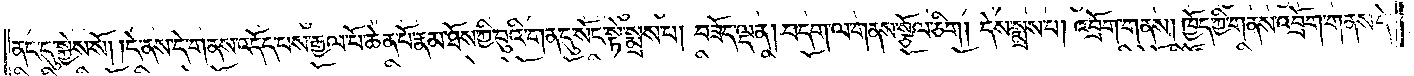ནང་དུ་སྐྱེས་སོ། །དེ་ནས་དེ་གནས་འདོད་པས་རྒྱལ་པོ་ཆེན་པོ་རྣམ་ཐོས་ཀྱི་བུའི་གན་དུ་སོང་སྟེ་སྨྲས་པ། བཟོད་ལྡན། བདག་ལ་གནས་སྩོལ་ཅིག །དེས་སྨྲས་པ། འབྲོག་གནས། ཁྱོད་ཀྱི་གནས་འབྲོག་གནས་དེ་
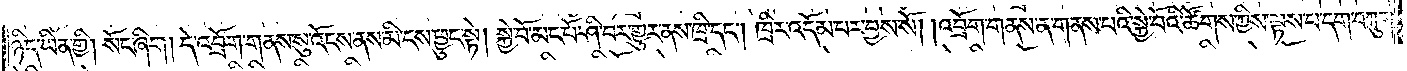ཉིད་ཡིན་གྱི། སོང་ཞིག །དེ་འབྲོག་གནས་སུ་འོངས་ནས་མི་ངས་ཕྱུང་སྟེ། སྐྱེ་བོ་མང་པོ་ཤི་བར་གྱུར་ནས་ཁྲི་དང༌། ཁྲིར་འདོམ་པར་བྱས་སོ། །འབྲོག་གནས་ན་གནས་པའི་སྐྱེ་བོའི་ཚོགས་ཀྱིས་ལྟས་པ་དག་བཀུག་
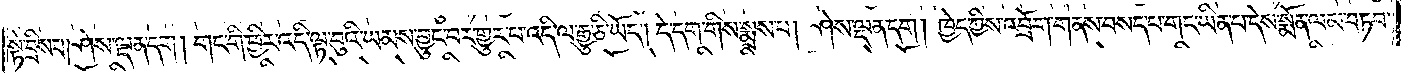སྟེ་བྲིས་པ། ཤེས་ལྡན་དག །གང་གི་ཕྱིར་འདི་ལྟ་བུའི་ཡམས་བྱུང་བར་གྱུར་པ་འདི་ལ་རྒྱུ་ཅི་ཡོད། དེ་དག་གིས་སྨྲས་པ། ཤེས་ལྡན་དག །ཁྱེད་ཀྱིས་འབྲོག་གནས་བསད་པ་གང་ཡིན་པ་དེས་སྨོན་ལམ་བཏབ་
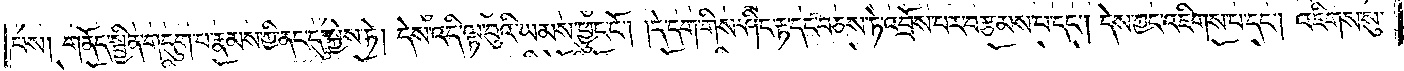པས། གནོད་སྦྱིན་གདུག་པ་རྣམས་ཀྱི་ནང་དུ་སྐྱེས་ཏེ། དེས་འདི་ལྟ་བུའི་ཡམས་ཕྱུང་ངོ༌། །དེ་དག་གིས་ཤིང་རྟ་དང་བཅས་ཏེ་འབྲོས་པར་བརྩམས་པ་དང༌། དེས་ཀྱང་འཇིགས་པ་དང༌། འཇིགས་སུ་
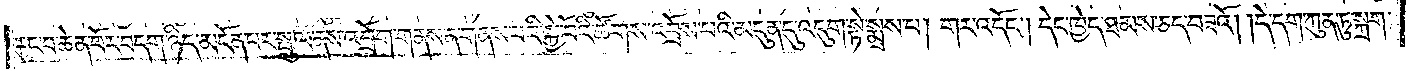རུང་བ་ཆེན་པོར་བདག་ཉིད་མངོན་པར་སྤྲུལ་ནས་འབྲོག་གནས་ན་གནས་པའི་སྐྱེ་བོའི་ཚོགས་འབྲོས་པའི་མདུན་དུ་འདུག་སྟེ་སྨྲས་པ། གར་འདོང༌། དེང་ཁྱེད་ཐམས་ཅད་བཟའོ། །དེ་དག་ཀུན་ཏུ་སྐྲག་
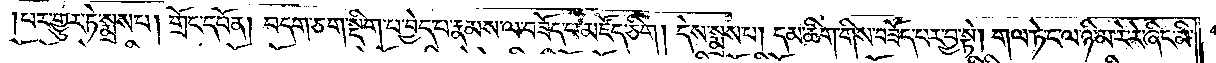།པར་གྱུར་ཏེ་སྨྲས་པ། གྲོང་དཔོན། བདག་ཅག་སྡིག་པ་བྱེད་པ་རྣམས་ལ་བཟོད་པ་མཛོད་ཅིག །དེས་སྨྲས་པ། དམ་ཚིག་གིས་བཟོད་པར་བྱ་སྟེ། གལ་ཏེ་ང་ལ་ཉི་མ་རེ་རེ་ཞིང་མི་
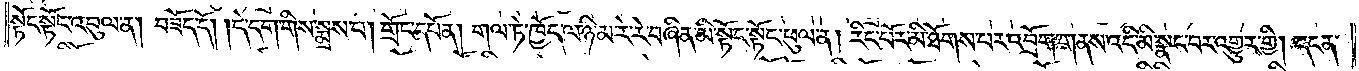སྟོང་སྟོང་འབུལ་ན། བཟོད་དོ། །དེ་དག་གིས་སྨྲས་པ། གྲོང་དཔོན། གལ་ཏེ་ཁྱོད་ལ་ཉི་མ་རེ་རེ་བཞིན་མི་སྟོང་སྟོང་ཕུལ་ན། རིང་པོར་མི་ཐོགས་པར་འབྲོག་གནས་འདི་མི་སྣང་བར་འགྱུར་གྱི། དངན་
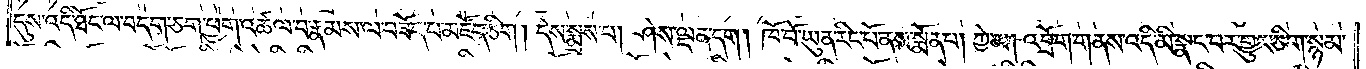དུས་འདི་ཐོང་ལ་བདག་ཅག་ཕྱག་འཚལ་བ་རྣམས་ལ་བཟོད་པ་མཛོད་ཅིག །དེས་སྨྲས་པ། ཤེས་ལྡན་དག །ཁོ་བོ་ཡུན་རིང་པོ་ནས་སྨོན་པ། ཀྱེ་མ། འབྲོག་གནས་འདི་མི་སྣང་བར་གྱུར་ཅིག་སྙམ་
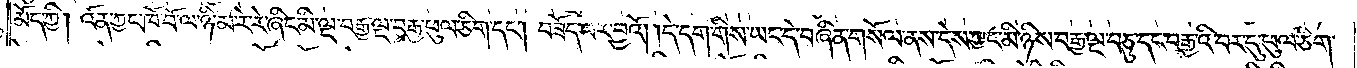མོད་ཀྱི། འོན་ཀྱང་ཁོ་བོ་ལ་ཉི་མ་རེ་རེ་ཞིང་མི་ལྔ་བརྒྱ་ལྔ་བརྒྱ་ཕུལ་ཅིག་དང༌། བཟོད་པར་བྱའོ། །དེ་དག་གིས་ཡང་དེ་བཞིན་གསོལ་ནས་དེས་ཀྱང་མི་ཉིས་བརྒྱ་ལྔ་བཅུ་དང་བརྒྱའི་བར་དུ་ཕུལ་ཅིག་
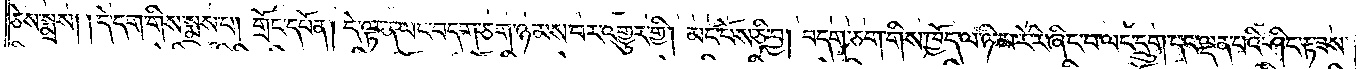ཅེས་སྨྲས། །དེ་དག་གིས་སྨྲས་པ། གྲོང་དཔོན། དེ་ལྟ་ན་ཡང་བདག་ཅག་ཉམས་པར་འགྱུར་གྱི། མང་པོས་ཅི་བྱ། བདག་ཅག་གིས་ཁྱོད་ལ་ཉི་མ་རེ་རེ་ཞིང་བ་ལང་དྲུག་དང་ལྡན་པའི་ཤིང་རྟ་ཟས་
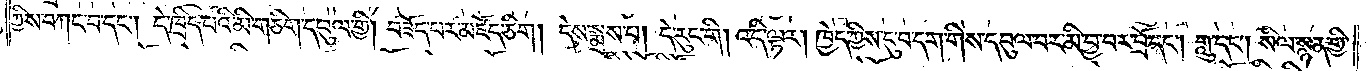ཀྱིས་བཀང་བ་དང༌། དེ་ཁྲིད་པའི་མི་གཅིག་དབུལ་གྱི། བཟོད་པར་མཛོད་ཅིག །དེས་སྨྲས་པ། དེ་རུང་གི། འདི་ལྟར། ཁྱེད་ཀྱིས་དུ་བ་དག་གིས་དབུལ་བར་མི་བྱ་བར་བྲོ་དང༌། གླུ་དང༌། སིལ་སྙན་གྱི་
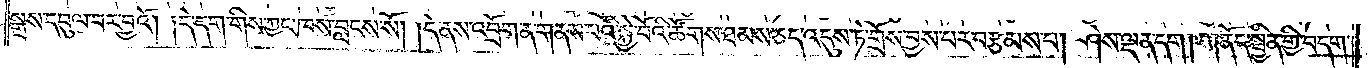སྒྲས་དབུལ་བར་བྱའོ། །དེ་དག་གིས་ཀྱང་ཁས་བླངས་སོ། །དེ་ནས་འབྲོག་ན་གནས་པའི་སྐྱེ་བོའི་ཚོགས་ཐམས་ཅད་འདུས་ཏེ་གྲོས་བྱས་པར་བརྩམས་པ། ཤེས་ལྡན་དག །གནོད་སྦྱིན་གྱི་བདག་
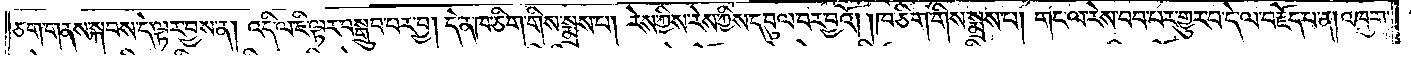ཅག་གནས་སྐབས་དེ་ལྟར་བྱས་ན། འདི་ལ་ཇི་ལྟར་བསྒྲུབ་པར་བྱ། དེ་ན་ཁ་ཅིག་གིས་སྨྲས་པ། རེས་ཀྱིས་རེས་ཀྱིས་དབུལ་བར་བྱའོ། །ཁ་ཅིག་གིས་སྨྲས་པ། གང་ལ་རེས་བབ་པར་གྱུར་པ་དེ་ལ་བརྗོད་པ་ན། འཁྲུག་
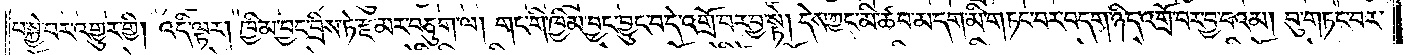པ་སྐྱེ་བར་འགྱུར་གྱི། འདི་ལྟར། ཁྱིམ་བྱང་བྲིས་ཏེ་རྫ་མར་བཅུག་ལ། གང་གི་ཁྱིམ་བྱང་བྱུང་བ་ད་འགྲོ་བར་བྱ་སྟེ། དེས་ཀྱང་མི་ཚབ་མ་དག་མི་གཏང་བར་བདག་ཉིད་འགྲོ་བར་བྱ་བའམ། བུ་གཏང་བར་
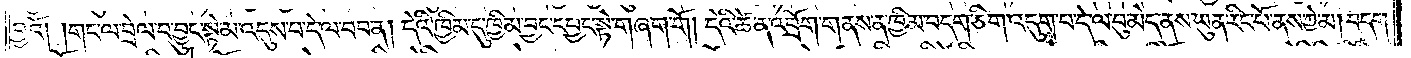བྱའོ། །གང་ལ་བྲེལ་བ་བྱུང་སྟེ་མ་འདུས་པ་དེ་ལ་བབ་ན། དེའི་ཁྱིམ་དུ་ཁྱིམ་བྱང་དཔྱང་སྟེ་གཞག་གོ །དེའི་ཚེ་ན་འབྲོག་གནས་ན་ཁྱིམ་བདག་ཅིག་འདུག་པ་དེ་ལ་བུ་མེད་ནས་ཡུན་རིང་པོ་ནས་ཀྱེ་མ། བདག་
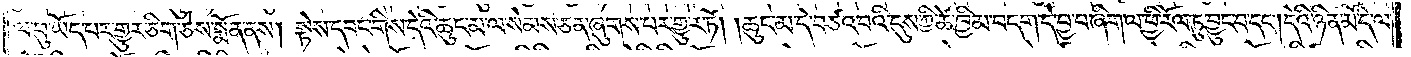ལ་བུ་ཡོད་པར་གྱུར་ཅིག་ཅེས་སྨོན་ནས། སྟེས་དབང་གིས་དེའི་ཆུང་མ་ལ་སེམས་ཅན་ཞུགས་པར་གྱུར་ཏོ། །ཆུང་མ་དེ་བཙའ་བའི་དུས་ཀྱི་ཚེ་ཁྱིམ་བདག་དེ་བྱ་བ་ཞིག་ལ་ཕྱི་རོལ་ཏུ་བྱུང་བ་དང༌། དེའི་ཉིན་མོ་དེ་ལ་
